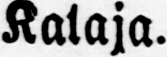Kalaja.
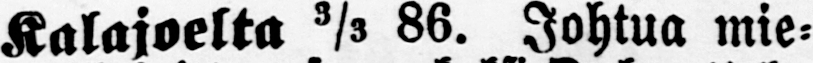Kalajoelta 3/3 86. Johtua mie-
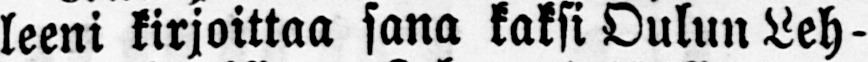leeni kirjoittaa sana kaksi Oulun Leh-
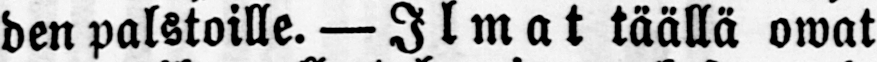den palstoille. — Ilmat täällä owat
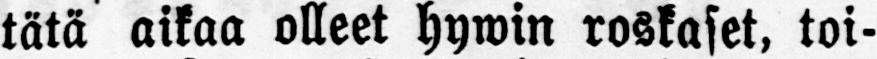tätä aikaa olleet hywin roskaset, toi-
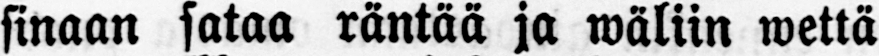sinaan sataa räntää ja wäliin wettä
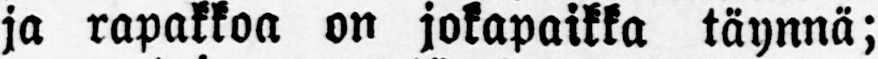ja rapakkoa on jokapaikka täynnä;
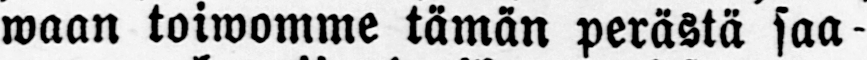waan toiwomme tämän perästä saa-
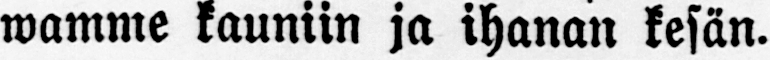wamme kauniin ja ihanan kesän.
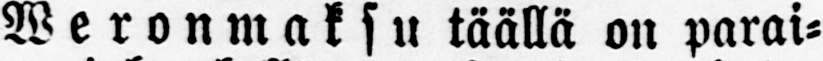Weronmaksu täällä on parai-
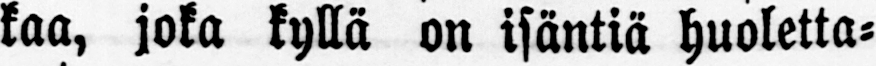kaa, joka kyllä on isäntiä huoletta-
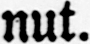nut.
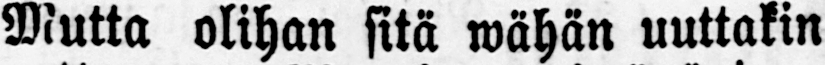Mutta olihan sitä wähän uuttakin
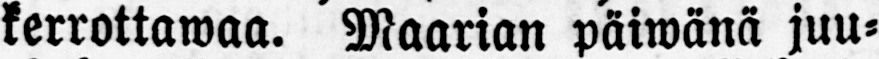kerrottawan. Maarian päiwänä juu-
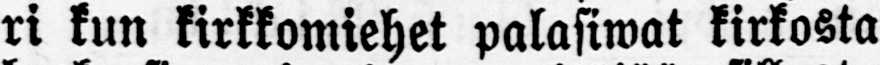ri kun kirkkomiehet palasiwat kirkosta
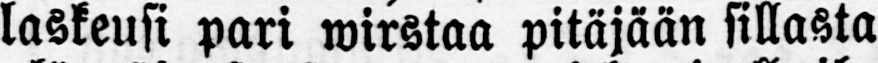laskeusi pari wirstaa pitäjään sillasta
